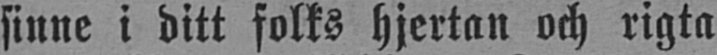sinne i ditt folks hjertan och rigta
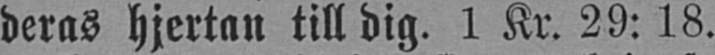deras hjertan till dig. 1 Kr. 29:18.
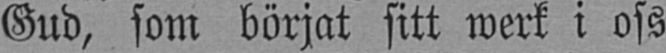Gud, som börjat sitt werk i oss
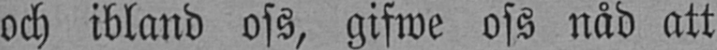och ibland oss, gifwe oss nåd att
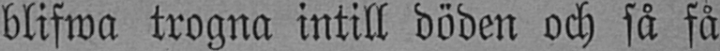blifwa trogna intill döden och så få
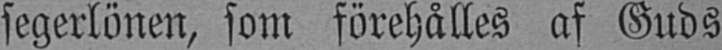segerlönen, som förehålles af Guds
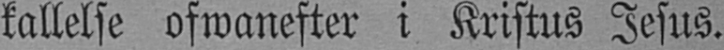kallelse ofwanefter i Kristus Jesus.
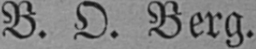B. O. Berg.
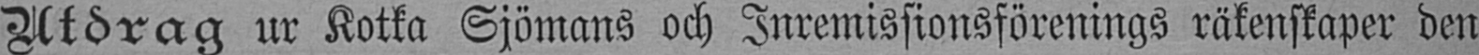Utdrag ur Kotka Sjömans och Inremissionsförenings räkenskaper den
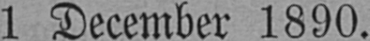1 December 1890.
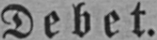Debet.
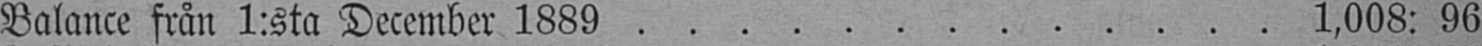Balance från 1:sta December 1889 1,008: 96
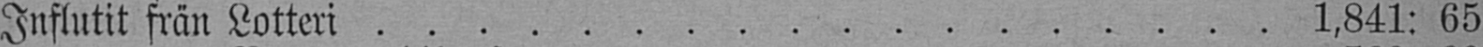Influtit frän Lotteri 1,841: 65
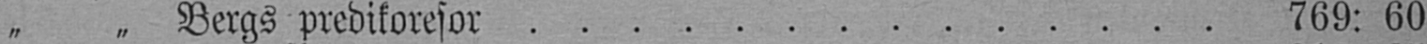" " Bergs predikoresor 769: 60
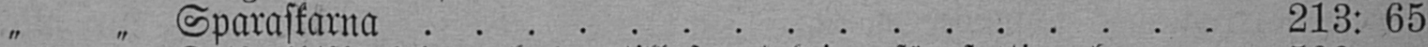" " Sparaskarna 213: 65
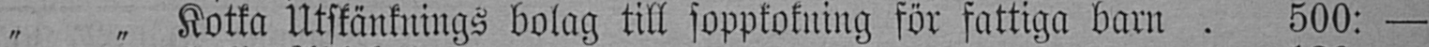" " Kotka Utskänknings bolag till soppkokning för fattiga barn . 500: —
